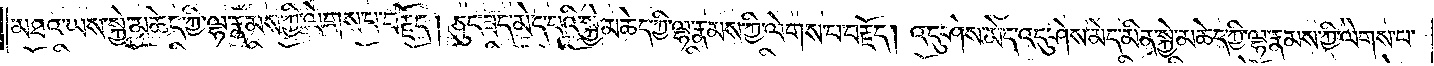མཐའ་ཡས་སྐྱེ་མཆེད་ཀྱི་ལྷ་རྣམས་ཀྱི་ལེགས་པ་བརྗོད། ཅུང་ཟད་མེད་པའི་སྐྱེ་མཆེད་ཀྱི་ལྷ་རྣམས་ཀྱི་ལེགས་པ་བརྗོད། འདུ་ཤེས་མེད་འདུ་ཤེས་མེད་མིན་སྐྱེ་མཆེད་ཀྱི་ལྷ་རྣམས་ཀྱི་ལེགས་པ་
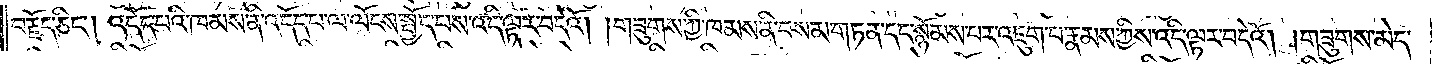བརྗོད་ཅིང༌། འདོད་པའི་ཁམས་ནི་འདོད་པ་ལ་ལོངས་སྤྱོད་པས་འདི་ལྟར་བདེའོ། །གཟུགས་ཀྱི་ཁམས་ནི་བསམ་གཏན་དང་སྙོམས་པར་འཇུག་པ་རྣམས་ཀྱིས་འདི་ལྟར་བདེའོ། །གཟུགས་མེད་
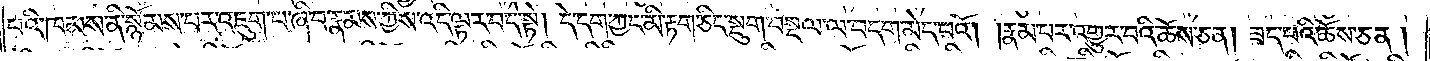པའི་ཁམས་ནི་སྙོམས་པར་འཇུག་པ་ཞ་བ་རྣམས་ཀྱིས་འདི་ལྟར་བདེ་སྟེ། དེ་དག་ཀྱང་མི་རྟག་ཅིང་སྡུག་བསྔལ་ལ་བདག་མེད་པའོ། །རྣམ་པར་འགྱུར་བའི་ཆོས་ཅན། ཟད་པའི་ཆོས་ཅན།
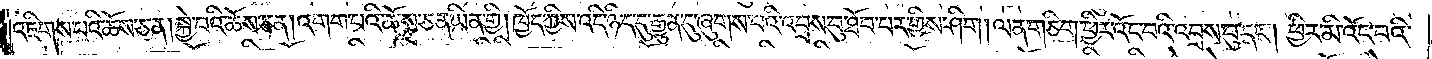འཇིགས་པའི་ཆོས་ཅན། སྐྱེ་བའི་ཆོས་ཅན། འགག་པའི་ཆོས་ཅན་ཡིན་གྱི། ཁྱོད་ཀྱིས་འདི་ཉིད་དུ་རྒྱུན་དུ་ཞུགས་པའི་འབྲས་བུ་ཐོབ་པར་གྱིས་ཤིག །ལན་གཅིག་ཕྱིར་འོང་བའི་འབྲས་བུ་དང༌། ཕྱིར་མི་འོང་བའི་
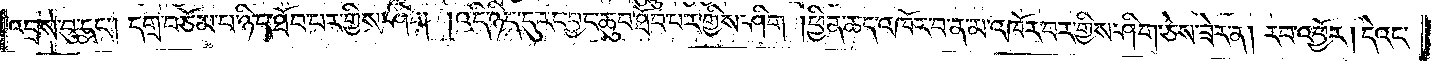འབྲས་བུ་དང༌། དགྲ་བཅོམ་པ་ཉིད་ཐོབ་པར་གྱིས་ཤིག །འདི་ཉིད་དུ་རང་བྱང་ཆུབ་ཐོབ་པར་གྱིས་ཤིག །ཕྱིན་ཆད་འཁོར་བ་ན་མ་འཁར་བར་གྱིས་ཤིག་ཅེས་ཟེར་ན། རབ་འབྱོར། དེའང་
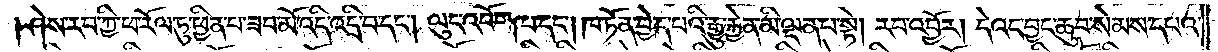ཤེས་རབ་ཀྱི་ཕ་རོལ་ཏུ་ཕྱིན་པ་ཟབ་མོ་འདི་འདྲི་བ་དང༌། ལུང་འབོག་པ་དང༌། ཁ་ཏོན་བྱེད་པའི་རྒྱུ་རྐྱེན་མི་ལྡན་པ་སྟེ། རབ་འབྱོར། དེའང་བྱང་ཆུབ་སེམས་དཔའ་
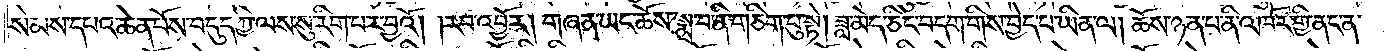སེམས་དཔའ་ཆེན་པོས་བདུད་ཀྱི་ལས་སུ་རིག་པར་བྱའོ། །རབ་འབྱོར། གཞན་ཡང་ཆོས་སྨྲ་བ་ནི་གཅིག་པུ་སྟེ། ཟླ་མེད་ཅིང་བདག་གིས་བྱེད་པ་ཡིན་ལ། ཆོས་ཉན་པ་ནི་འཁོར་གྱི་ནང་ན་
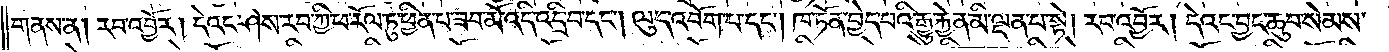གནས་ན། རབ་འབྱོར། དེའང་ཤེས་རབ་ཀྱི་ཕ་རོལ་ཏུ་ཕྱིན་པ་ཟབ་མོ་འདི་འདྲི་བ་དང༌། ལུང་འབོག་པ་དང༌། ཁ་ཏོན་བྱེད་པའི་རྒྱུ་རྐྱེན་མ་ལྡན་པ་སྟེ། རབ་འབྱོར། དེའང་བྱང་ཆུབ་སེམས་
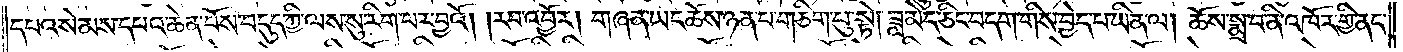དཔའ་སེམས་དཔའ་ཆེན་པོས་བདུད་ཀྱི་ལས་སུ་རིག་པར་བྱའོ། །རབ་འབྱོར། གཞན་ཡང་ཆོས་ཉན་པ་ནི་གཅིག་པུ་སྟེ། ཟླ་མེད་ཅིང་བདག་གིས་བྱེད་པ་ཡིན་ལ། ཆོས་སྨྲ་བ་ནི་འཁོར་གྱི་ནང་
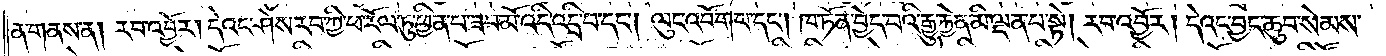ན་གནས་ན། རབ་འབྱོར། དེའང་ཤེས་རབ་ཀྱི་ཕ་རོལ་ཏུ་ཕྱིན་པ་ཟབ་མོ་འདི་འདྲི་བ་དང༌། ལུང་འབོག་པ་དང༌། ཁ་ཏོན་བྱེད་པའི་རྒྱུ་རྐྱེན་མི་ལྡན་པ་སྟེ། རབ་འབྱོར། དེའང་བྱང་ཆུབ་སེམས་
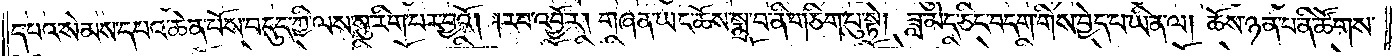དཔའ་སེམས་དཔའ་ཆེན་པོས་བདུད་ཀྱི་ལས་སུ་རིག་པར་བྱའོ། །རབ་འབྱོར། གཞན་ཡང་ཆོས་སྨྲ་བ་ནི་གཅིག་པུ་སྟེ། ཟླ་མེད་ཅིང་བདག་གིས་བྱེད་པ་ཡིན་ལ། ཆོས་ཉན་པ་ནི་ཚོགས་
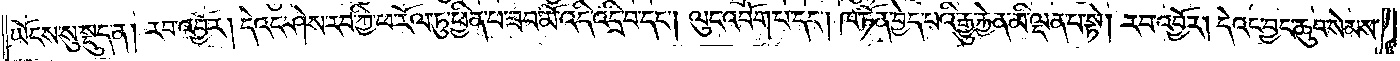ཡོངས་སུ་སྡུད་ན། རབ་འབྱོར། དེའང་ཤེས་རབ་ཀྱི་ཕ་རོལ་ཏུ་ཕྱིན་པ་ཟབ་མོ་འདི་འདྲི་བ་དང༌། ལུང་འབོག་པ་དང༌། ཁ་ཏོན་བྱེད་པའི་རྒྱུ་རྐྱེན་མི་ལྡན་པ་སྟེ། རབ་འབྱོར། དེའང་བྱང་ཆུབ་སེམས་
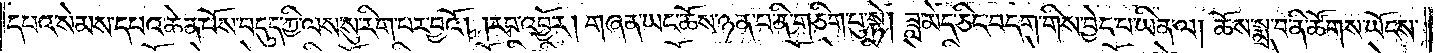དཔའ་སེམས་དཔའ་ཆེན་པོས་བདུད་ཀྱི་ལས་སུ་རིག་པར་བྱའོ། །རབ་འབྱོར། གཞན་ཡང་ཆོས་ཉན་པ་ནི་གཅིག་པུ་སྟེ། ཟླ་མེད་ཅིང་བདག་གིས་བྱེད་པ་ཡིན་ལ། ཆོས་སྨྲ་བ་ནི་ཚོགས་ཡོངས་
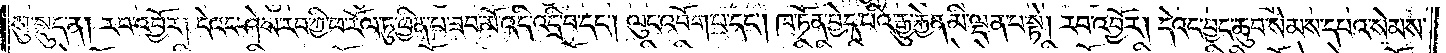སུ་སྡུད་ན། རབ་འབྱོར། དེའང་ཤེས་རབ་ཀྱི་ཕ་རོལ་ཏུ་ཕྱིན་པ་ཟབ་མོ་འདི་འདྲི་བ་དང༌། ལུང་འབོག་པ་དང༌། ཁ་ཏོན་བྱེད་པའི་རྒྱུ་རྐྱེན་མི་ལྡན་པ་སྟེ། རབ་འབྱོར། དེའང་བྱང་ཆུབ་སེམས་དཔའ་སེམས་
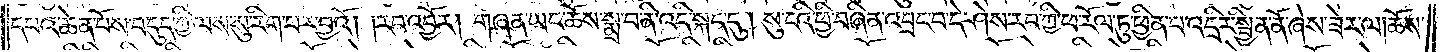དཔའ་ཆེན་པོས་བདུད་ཀྱི་ལས་སུ་རིག་པར་བྱའོ། །རབ་འབྱོར། །གཞན་ཡང་ཆོས་སྨྲ་བ་ནི་འདི་སྐད་དུ། སུ་ངའི་ཕྱི་བཞིན་འབྲང་བ་དེ་ཤེས་རབ་ཀྱི་ཕ་རོལ་ཏུ་ཕྱིན་པ་འདྲིར་སྦྱིན་ནོ་ཞེས་ཟེར་ལ། ཆོས་
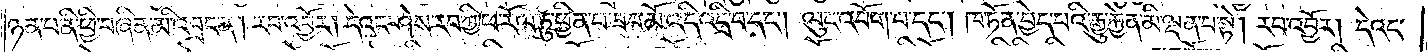ཉན་པ་ནི་ཕྱི་བཞིན་མི་འབྲང་ན། རབ་འབྱོར། དེའང་ཤེས་རབ་ཀྱི་ཕ་རོལ་ཏུ་ཕྱིན་པ་ཟབ་མོ་འདི་འདྲི་བ་དང༌། ལུང་འབོག་པ་དང༌། ཁ་ཏོན་བྱེད་པའི་རྒྱུ་རྐྱེན་མི་ལྡན་པ་སྟེ། རབ་འབྱོར། དེའང་
